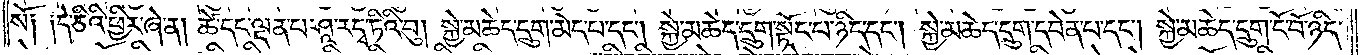སོ། །དེ་ཅིའི་ཕྱིར་ཞེ་ན། ཚེ་དང་ལྡན་པ་ཤཱ་རདྭ་ཏིའི་བུ། སྐྱེ་མཆེད་དྲུག་མེད་པ་དང༌། སྐྱེ་མཆེད་དྲུག་སྟོང་པ་ཉིད་དང༌། སྐྱེ་མཆེད་དྲུག་དབེན་པ་དང༌། སྐྱེ་མཆེད་དྲུག་ངོ་བོ་ཉིད་
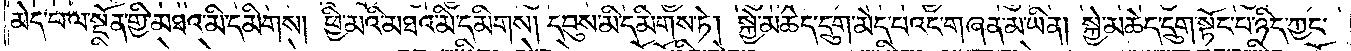མེད་པ་ལ་སྔོན་གྱི་མཐའ་མི་དམིགས། ཕྱི་མའི་མཐའ་མི་དམིགས། དབུས་མི་དམིགས་ཏེ། སྐྱེ་མཆེད་དྲུག་མེད་པའང་གཞན་མ་ཡིན། སྐྱེ་མཆེད་དྲུག་སྟོང་པ་ཉིད་ཀྱང་
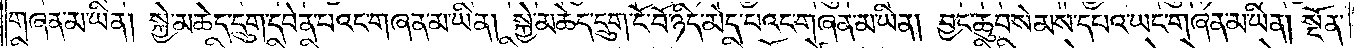གཞན་མ་ཡིན། སྐྱེ་མཆེད་དྲུག་དབེན་པའང་གཞན་མ་ཡིན། སྐྱེ་མཆེད་དྲུག་ངོ་བོ་ཉིད་མེད་པའང་གཞན་མ་ཡིན། བྱང་ཆུབ་སེམས་དཔའ་ཡང་གཞན་མ་ཡིན། སྔོན་
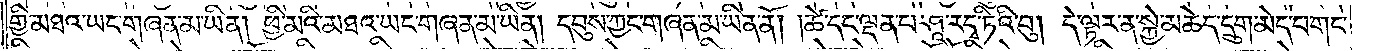གྱི་མཐའ་ཡང་གཞན་མ་ཡིན། ཕྱི་མའི་མཐའ་ཡང་གཞན་མ་ཡིན། དབུས་ཀྱང་གཞན་མ་ཡིན་ནོ། །ཚེ་དང་ལྡན་པ་ཤཱ་རདྭ་ཏིའི་བུ། དེ་ལྟར་ན་སྐྱེ་མཆེད་དྲུག་མེད་པ་གང་
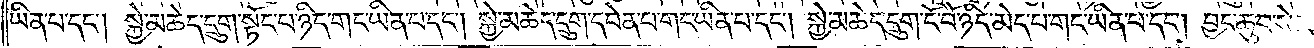ཡིན་པ་དང༌། སྐྱེ་མཆེད་དྲུག་སྟོང་པ་ཉིད་གང་ཡིན་པ་དང༌། སྐྱེ་མཆེད་དྲུག་དབེན་པ་གང་ཡིན་པ་དང༌། སྐྱེ་མཆེད་དྲུག་ངོ་བོ་ཉིད་མེད་པ་གང་ཡིན་པ་དང༌། བྱང་ཆུབ་སེམས་
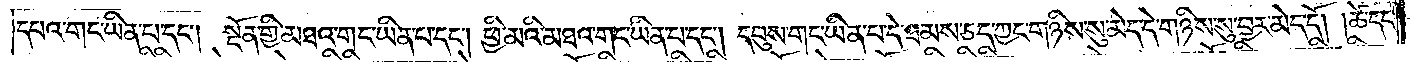དཔའ་གང་ཡིན་པ་དང༌། སྔོན་གྱི་མཐའ་གང་ཡིན་པ་དང༌། ཕྱི་མའི་མཐའ་གང་ཡིན་པ་དང༌། དབུས་གང་ཡིན་པ་དེ་ཐམས་ཅད་ཀྱང་གཉིས་སུ་མེད་དེ་གཉིས་སུ་བྱར་མེད་དོ། །ཚེ་དང་
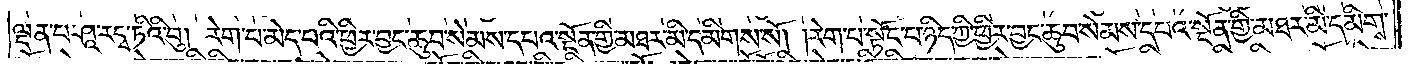ལྡན་པ་ཤཱ་རདྭ་ཏིའི་བུ། རེག་པ་མེད་པའི་ཕྱིར་བྱང་ཆུབ་སེམས་དཔའ་སྔོན་གྱི་མཐར་མི་དམིགས་སོ། །རེག་པ་སྟོང་པ་ཉིད་ཀྱི་ཕྱིར་བྱང་ཆུབ་སེམས་དཔའ་སྔོན་གྱི་མཐར་མི་དམིགས་
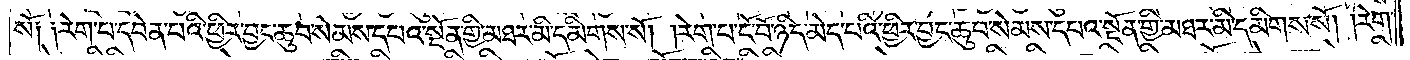སོ༑ ༑རེག་པ་དབེན་པའི་ཕྱིར་བྱང་ཆུབ་སེམས་དཔའ་སྔོན་གྱི་མཐར་མི་དམིགས་སོ། །རེག་པ་ངོ་བོ་ཉིད་མེད་པའི་ཕྱིར་བྱང་ཆུབ་སེམས་དཔའ་སྔོན་གྱི་མཐར་མི་དམིགས་སོ། །རེག་
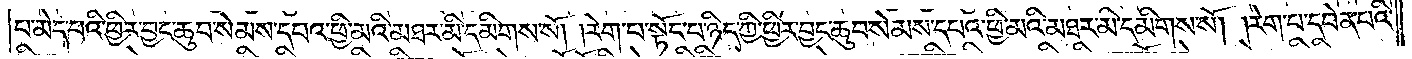པ་མེད་པའི་ཕྱིར་བྱང་ཆུབ་སེམས་དཔའ་ཕྱི་མའི་མཐར་མི་དམིགས་སོ། །རེག་པ་སྟོང་པ་ཉིད་ཀྱི་ཕྱིར་བྱང་ཆུབ་སེམས་དཔའ་ཕྱི་མའི་མཐར་མི་དམིགས་སོ། །རེག་པ་དབེན་པའི་
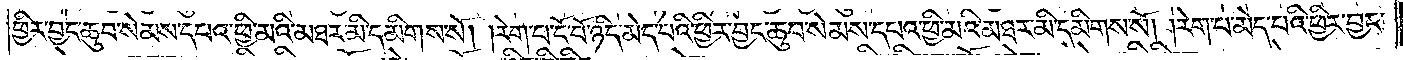ཕྱིར་བྱང་ཆུབ་སེམས་དཔའ་ཕྱི་མའི་མཐར་མི་དམིགས་སོ། །རེག་པ་ངོ་བོ་ཉིད་མེད་པའི་ཕྱིར་བྱང་ཆུབ་སེམས་དཔའ་ཕྱི་མའི་མཐར་མི་དམིགས་སོ། །རེག་པ་མེད་པའི་ཕྱིར་བྱང་
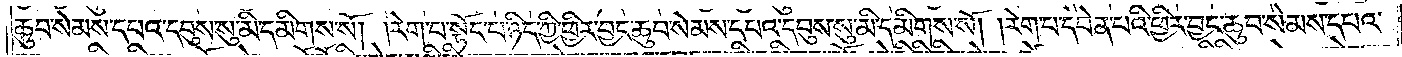ཆུབ་སེམས་དཔའ་དབུས་སུ་མི་དམིགས་སོ། །རེག་པ་སྟོང་པ་ཉིད་ཀྱི་ཕྱིར་བྱང་ཆུབ་སེམས་དཔའ་དབུས་སུ་མི་དམིགས་སོ། །རེག་པ་དབེན་པའི་ཕྱིར་བྱང་ཆུབ་སེམས་དཔའ་
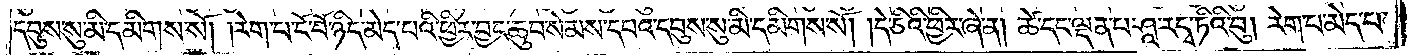དབུས་སུ་མི་དམིགས་སོ། །རེག་པ་ངོ་བོ་ཉིད་མེད་པའི་ཕྱིར་བྱང་ཆུབ་སེམས་དཔའ་དབུས་སུ་མི་དམིགས་སོ། །དེ་ཅིའི་ཕྱིར་ཞེ་ན། ཚེ་དང་ལྡན་པ་ཤཱ་རདྭ་ཏིའི་བུ། རེག་པ་མེད་པ་
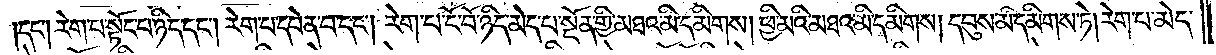དང༌། རེག་པ་སྟོང་པ་ཉིད་དང༌། རེག་པ་དབེན་པ་དང༌། རེག་པ་ངོ་བོ་ཉིད་མེད་པ་ལ་སྔོན་གྱི་མཐའ་མི་དམིགས། ཕྱི་མའི་མཐའ་མི་དམིགས། དབུས་མི་དམིགས་ཏེ། རེག་པ་མེད་
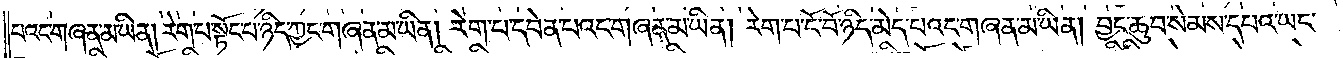པའང་གཞན་མ་ཡིན། རེག་པ་སྟོང་པ་ཉིད་ཀྱང་གཞན་མ་ཡིན། རེག་པ་དབེན་པའང་གཞན་མ་ཡིན། རེག་པ་ངོ་བོ་ཉིད་མེད་པའང་གཞན་མ་ཡིན། བྱང་ཆུབ་སེམས་དཔའ་ཡང་
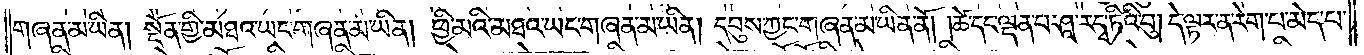གཞན་མ་ཡིན། སྔོན་གྱི་མཐའ་ཡང་གཞན་མ་ཡིན། ཕྱི་མའི་མཐའ་ཡང་གཞན་མ་ཡིན། དབུས་ཀྱང་གཞན་མ་ཡིན་ནོ། །ཚེ་དང་ལྡན་པ་ཤཱ་རདྭ་ཏིའི་བུ། དེ་ལྟར་ན་རེག་པ་མེད་པ་
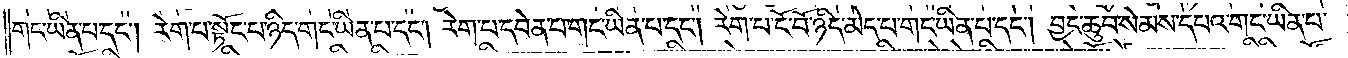གང་ཡིན་པ་དང༌། རེག་པ་སྟོང་པ་ཉིད་གང་ཡིན་པ་དང༌། རེག་པ་དབེན་པ་གང་ཡིན་པ་དང༌། རེག་པ་ངོ་བོ་ཉིད་མེད་པ་གང་ཡིན་པ་དང༌། བྱང་ཆུབ་སེམས་དཔའ་གང་ཡིན་པ་
